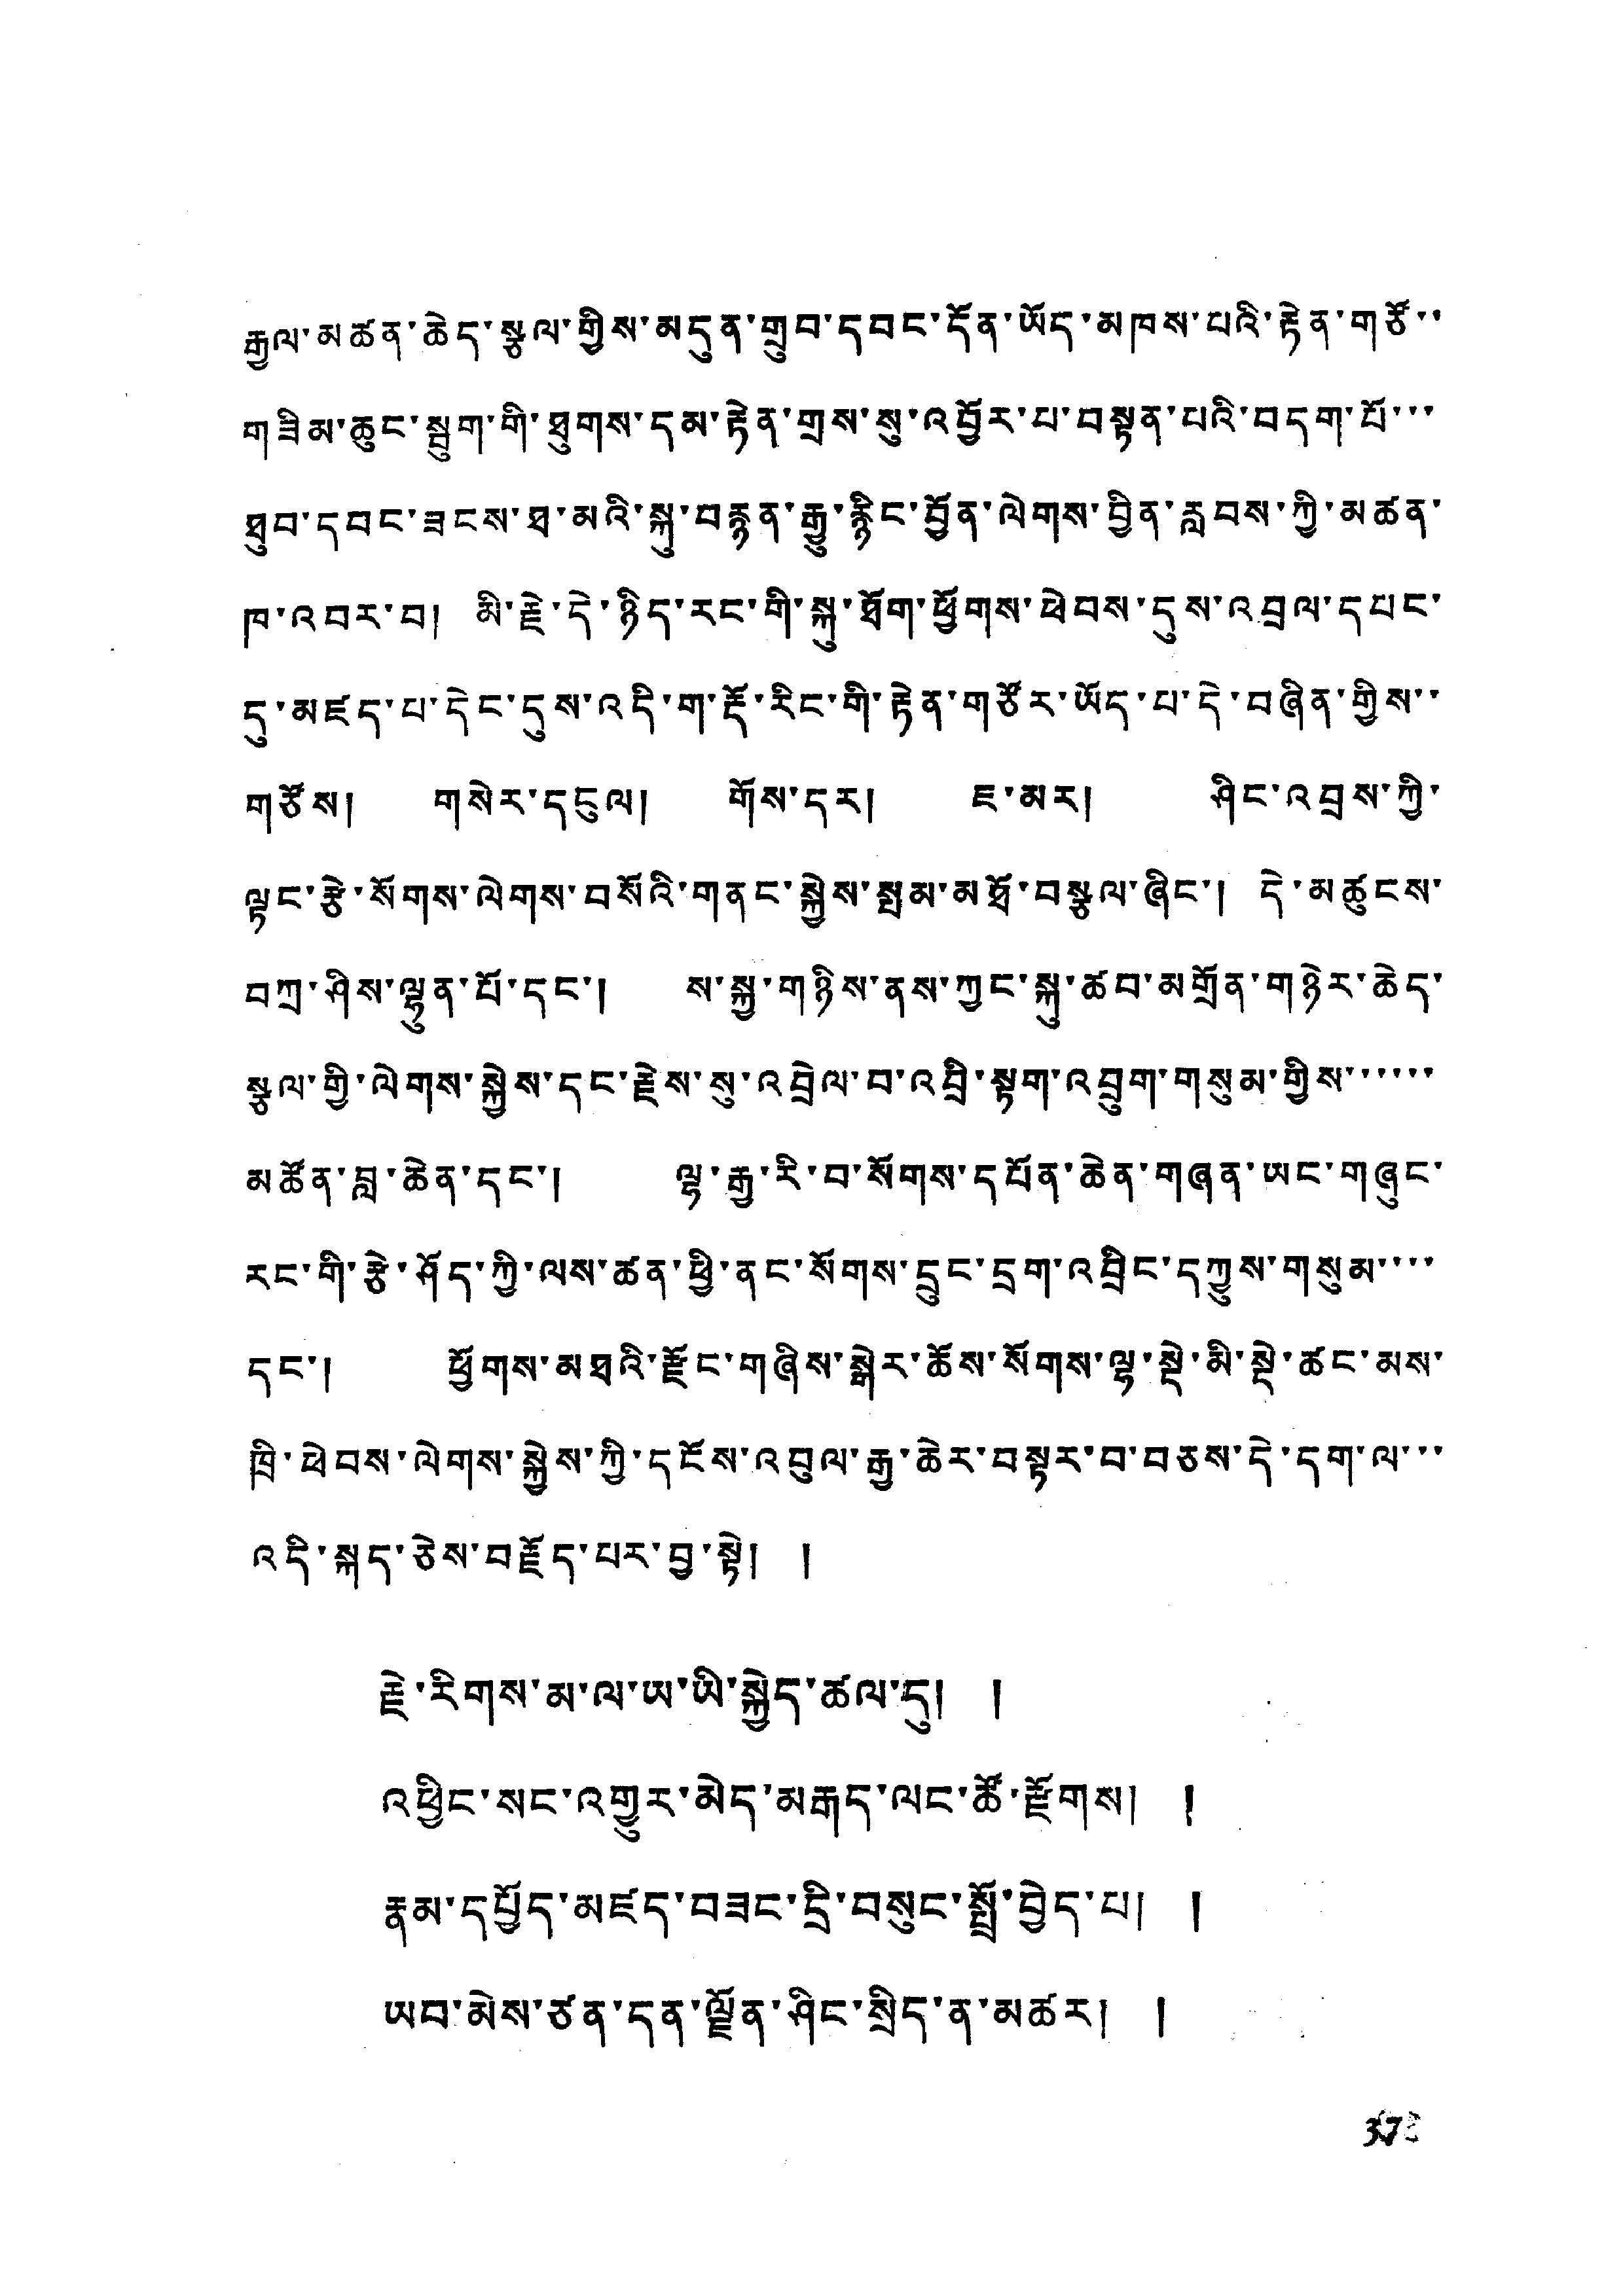རྒྱལ་མཚན་ཆེད་སྩལ་གྱིས་མདུན་གྲུབ་དབང་དོན་ཡོད་མཁས་པའི་རྟེན་གཙོ་
གཟིམ་ཆུང་སྦུག་གི་ཐུགས་རྟེན་གྲས་སུ་འབྱོར་པ་བསྟན་པའི་བདག་པོ་་་
ཐུབ་དབང་ཟངས་ཐ་མའི་སྐུ་བརྙན་རྒྱུ་རྙིང་བྱོན་ལེགས་བྱིན་རླབས་ཀྱི་མཚན་
ཁ་འབར་བ། མི་རྗེ་དེ་ཉིད་རང་གི་སྐུ་ཐོག་ཕྱོགས་ཕེབས་དུས་འབྲལ་དཔང་
དུ་མཛད་པ་དེང་དུས་འདི་ག་རྡོ་རིང་གི་རྟེན་གཙོར་ཡོད་པ་དེ་བཞིན་གྱིས་་
གཙོས། གསེར་དངུལ། གོས་དར། ཇ་མར། ཤིང་འབྲས་ཀྱི་
ལྟང་རྩེ་སོགས་ལེགས་བསོའི་གནང་སྐྱེས་སྤམ་མཐོ་བསྩལ་ཞིང་། དེ་མཚུངས་
བཀྲ་ཤིས་ལྷུན་པོ་དང་། ས་སྐྱ་གཉིས་ནས་ཀྱང་སྐུ་ཚབ་མགྲོན་གཉེར་ཆེད་
སྩལ་གྱི་ལེགས་སྐྱེས་དང་རྗེས་སུ་འབྲེལ་བ་འབྲི་སྟག་འབྲུག་གསུམ་གྱིས་་་་་་
མཚོན་བླ་ཆེན་དང་། ལྷ་རྒྱ་རི་བ་སོགས་དཔོན་ཆེན་གཞན་ཡང་གཞུང་
རང་གི་རྩེ་ཤོད་ཀྱི་ལས་ཚན་ཕྱི་ནང་སོགས་དྲུང་དྲག་འབྲིང་དཀྱུས་གསུམ་
དང་། ཕྱོགས་མཐའི་རྫོང་གཞིས་སྒེར་ཆོས་སོགས་ལྷ་སྡེ་མི་སྡེ་ཚང་མས་
ཁྲི་ཕེབས་ལེགས་སྐྱེས་ཀྱི་དངོས་འབུལ་རྒྱ་ཆེར་བསྟར་བ་བཅས་དེ་དག་ལ་
འདི་སྐད་ཅེས་བརྗོད་པར་བྱ་སྟེ། །
རྗེ་རིགས་མ་ལ་ཡ་ཡི་སྐྱེད་ཚལ་དུ། །
འཕྱིང་སང་འགྱུར་མེད་མརྒད་ལང་ཚོ་རྫོགས། །
རྣམ་དཔྱོད་མཛད་བཟང་དྲི་བསུང་སྤྲོ་བྱེད་པ། །
ཡབ་མེས་ཙན་དན་ལྗོན་ཤིང་སྲིད་ན་མཚར། །
37
